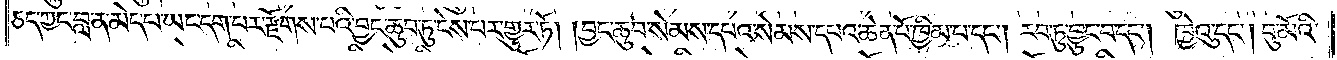ཅད་ཀྱང་བླ་ན་མེད་པ་ཡང་དག་པར་རྫོགས་པའི་བྱང་ཆུབ་ཏུ་ངེས་པར་གྱུར་ཏོ། །བྱང་ཆུབ་སེམས་དཔའ་སེམས་དཔའ་ཆེན་པོ་ཁྱིམ་པ་དང༌། རབ་ཏུ་བྱུང་བ་དང༌། ཁྱེའུ་དང༌། བུ་མོའི་
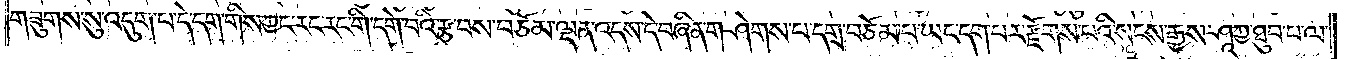གཟུགས་སུ་འདུག་པ་དེ་དག་གིས་ཀྱང་རང་རང་གི་དགེ་བའི་རྩ་བས་བཅོམ་ལྡན་འདས་དེ་བཞིན་གཤེགས་པ་དགྲ་བཅོམ་པ་ཡང་དག་པར་རྫོགས་པའི་སངས་རྒྱས་ཤཱཀྱ་ཐུབ་པ་ལ་
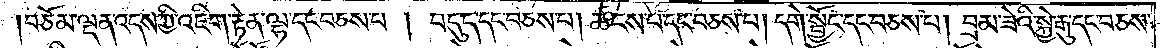བཅོམ་ལྡན་འདས་ཀྱི་འཇིག་རྟེན་ལྷ་དང་བཅས་པ། བདུད་དང་བཅས་པ། ཚངས་པ་དང་བཅས་པ། དགེ་སྦྱོང་དང་བཅས་པ། བྲམ་ཟེའི་སྐྱེ་རྒུ་དང་བཅས་
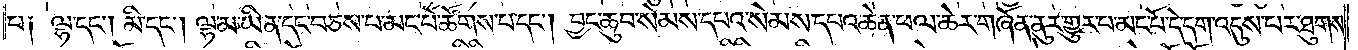པ༑ ལྷ་དང༌། མི་དང༌། ལྷ་མ་ཡིན་དང་བཅས་པ་མང་པོ་ཚོགས་པ་དང༌། བྱང་ཆུབ་སེམས་དཔའ་སེམས་དཔའ་ཆེན་ཕལ་ཆེར་གཞོན་ནུར་གྱུར་པ་མང་པོ་དེ་དག་འདུས་པར་ཐུགས་
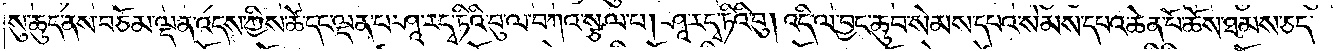སུ་ཆུད་ནས་བཅོམ་ལྡན་འདས་ཀྱིས་ཚེ་དང་ལྡན་པ་ཤཱ་ར་དྭ་ཏིའི་བུ་ལ་བཀའ་སྩལ་པ། ཤཱ་ར་དྭ་ཏིའི་བུ། འདི་ལ་བྱང་ཆུབ་སེམས་དཔའ་སེམས་དཔའ་ཆེན་པོ་ཆོས་ཐམས་ཅད་
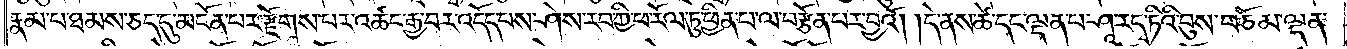རྣམ་པ་ཐམས་ཅད་དུ་མངོན་པར་རྫོགས་པར་འཚང་རྒྱ་བར་འདོད་པས་ཤེས་རབ་ཀྱི་ཕ་རོལ་ཏུ་ཕྱིན་པ་ལ་བརྩོན་པར་བྱའོ། །དེ་ནས་ཚེ་དང་ལྡན་པ་ཤཱ་ར་དྭ་ཏིའི་བུས་བཅོམ་ལྡན་
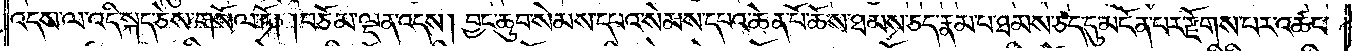འདས་ལ་འདི་སྐད་ཅེས་གསོལ་ཏོ། །བཅོམ་ལྡན་འདས། བྱང་ཆུབ་སེམས་དཔའ་སེམས་དཔའ་ཆེན་པོ་ཆོས་ཐམས་ཅད་རྣམ་པ་ཐམས་ཅད་དུ་མངོན་པར་རྫོགས་པར་འཚང་
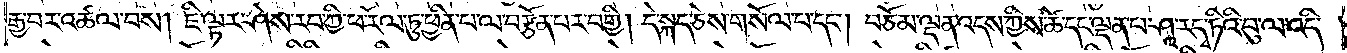རྒྱ་བར་འཚལ་བས། ཇི་ལྟར་ཤེས་རབ་ཀྱི་ཕ་རོལ་ཏུ་ཕྱིན་པ་ལ་བརྩོན་པར་བགྱི། དེ་སྐད་ཅེས་གསོལ་པ་དང༌། བཅོམ་ལྡན་འདས་ཀྱིས་ཚེ་དང་ལྡན་པ་ཤཱ་ར་དྭ་ཏིའི་བུ་ལ་འདི་
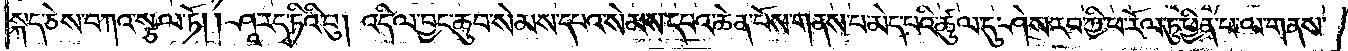སྐད་ཅེས་བཀའ་སྩལ་ཏོ། །ཤཱ་ར་དྭ་ཏིའི་བུ། འདི་ལ་བྱང་ཆུབ་སེམས་དཔའ་སེམས་དཔའ་ཆེན་པོས་གནས་པ་མེད་པའི་ཚུལ་དུ་ཤེས་རབ་ཀྱི་ཕ་རོལ་ཏུ་ཕྱིན་པ་ལ་གནས་
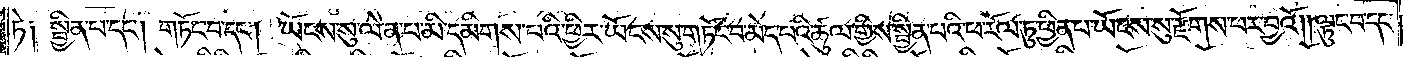ཏེ༑ སྦྱིན་པ་དང༌། གཏོང་བ་དང༌། ཡོངས་སུ་ལེན་པ་མི་དམིགས་པའི་ཕྱིར་ཡོངས་སུ་གཏོང་བ་མེད་པའི་ཚུལ་གྱིས་སྦྱིན་པའི་ཕ་རོལ་ཏུ་ཕྱིན་པ་ཡོངས་སུ་རྫོགས་པར་བྱའོ། །ལྟུང་བ་དང་
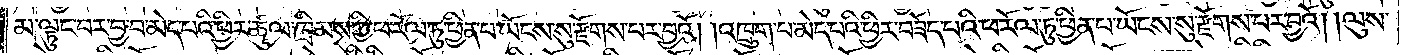མ་ལྟུང་བར་བྱ་བ་མེད་པའི་ཕྱིར་ཚུལ་ཁྲིམས་ཀྱི་ཕ་རོལ་ཏུ་ཕྱིན་པ་ཡོངས་སུ་རྫོགས་པར་བྱའོ། །འཁྲུག་པ་མེད་པའི་ཕྱིར་བཟོད་པའི་ཕ་རོལ་ཏུ་ཕྱིན་པ་ཡོངས་སུ་རྫོགས་པར་བྱའོ། །ལུས་
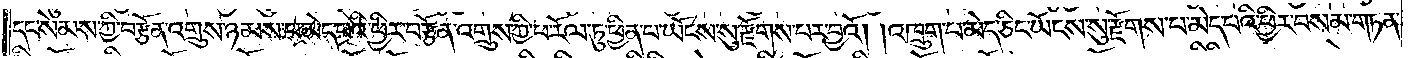དང་སེམས་ཀྱི་བརྩོན་འགྲུས་ཉམས་པ་མེད་པའི་ཕྱིར་བརྩོན་འགྲུས་ཀྱི་ཕ་རོལ་ཏུ་ཕྱིན་པ་ཡོངས་སུ་རྫོགས་པར་བྱའོ། །འཁྲུག་པ་མེད་ཅིང་ཡོངས་སུ་རྫོགས་པ་མེད་པའི་ཕྱིར་བསམ་གཏན་
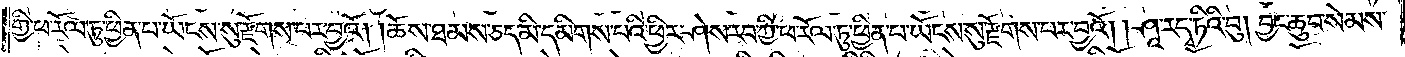གྱི་ཕ་རོལ་ཏུ་ཕྱིན་པ་ཡོངས་སུ་རྫོགས་པར་བྱའོ། །ཆོས་ཐམས་ཅད་མི་དམིགས་པའི་ཕྱིར་ཤེས་རབ་ཀྱི་ཕ་རོལ་ཏུ་ཕྱིན་པ་ཡོངས་སུ་རྫོགས་པར་བྱའོ། །ཤཱ་ར་དྭ་ཏིའི་བུ། བྱང་ཆུབ་སེམས་
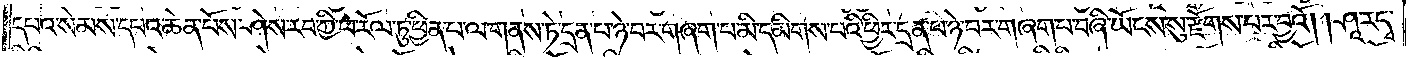དཔའ་སེམས་དཔའ་ཆེན་པོས་ཤེས་རབ་ཀྱི་ཕ་རོལ་ཏུ་ཕྱིན་པ་ལ་གནས་ཏེ་དྲན་པ་ཉེ་བར་གཞག་པ་མི་དམིགས་པའི་ཕྱིར་དྲན་པ་ཉེ་བར་གཞག་པ་བཞི་ཡོངས་སུ་རྫོགས་པར་བྱའོ། །ཤཱ་ར་དྭ་
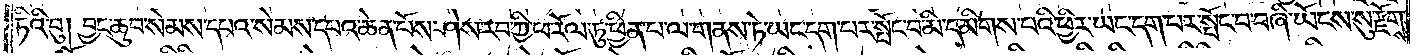ཏིའི་བུ། བྱང་ཆུབ་སེམས་དཔའ་སེམས་དཔའ་ཆེན་པོས་ཤེས་རབ་ཀྱི་ཕ་རོལ་ཏུ་ཕྱིན་པ་ལ་གནས་ཏེ་ཡང་དག་པར་སྤོང་བ་མི་དམིགས་པའི་ཕྱིར་ཡང་དག་པར་སྤོང་བ་བཞི་ཡོངས་སུ་རྫོགས་
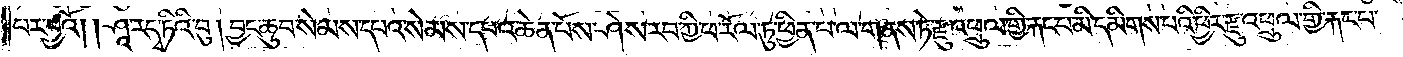པར་བྱའོ། །ཤཱ་ར་དྭ་ཏིའི་བུ། བྱང་ཆུབ་སེམས་དཔའ་སེམས་དཔའ་ཆེན་པོས་ཤེས་རབ་ཀྱི་ཕ་རོལ་ཏུ་ཕྱིན་པ་ལ་གནས་ཏེ་རྫུ་འཕྲུལ་གྱི་རྐང་པ་མི་དམིགས་པའི་ཕྱིར་རྫུ་འཕྲུལ་གྱི་རྐང་པ་
